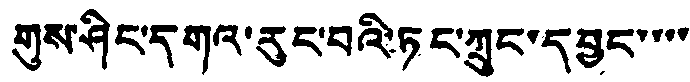གུས་ཤིང་དགའ་རུང་བའི་ཏང་ཀྲུང་དབྱང་་་་
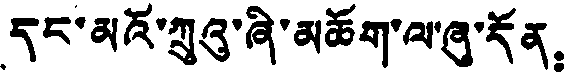དང་མའོ་ཀྲུའུ་ཞི་མཆོག་ལ་ཞུ་དོན：
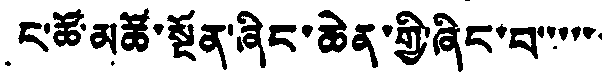ང་ཚོ་མཚོ་སྔོན་ཞིང་ཆེན་གྱི་ཞིང་བ་་་་་་
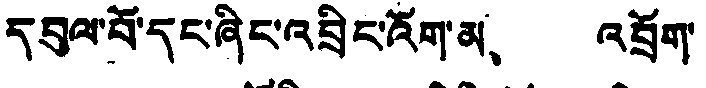དབུལ་བོ་དང་ཞིང་འབྲིང་འོག་མ、 འབྲོག་
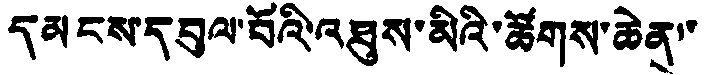དམངས་དབུལ་བོའི་འཐུས་མིའི་ཚོགས་ཆེན་་
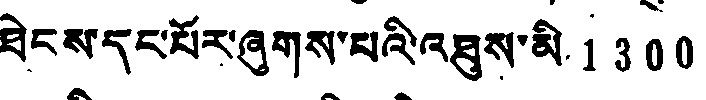ཐེངས་དང་པོར་ཞུགས་པའི་འཐུས་མི1300
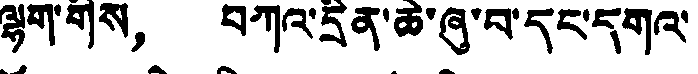ལྷག་གིས， བཀའ་དྲིན་ཆེ་ཞུ་བ་དང་དགའ་
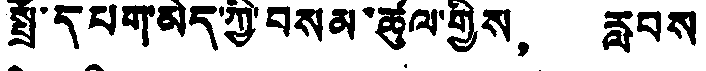སྤྲོ་དཔག་མེད་ཀྱི་བསམ་ཚུལ་གྱིས， རླབས
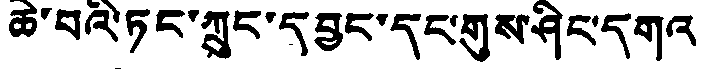ཆེ་བའི་ཏང་ཀྲུང་དབྱང་དང་གུས་ཤིང་དགའ
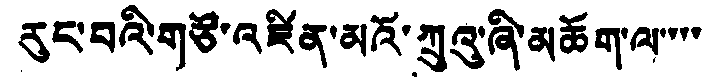རུང་བའི་གཙོ་འཛིན་མའོ་ཀྲུའུ་ཞི་མཆོག་ལ་་་་
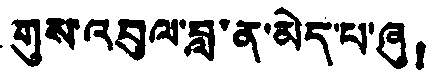གུས་འབུལ་བླ་ན་མེད་པ་ཞུ！
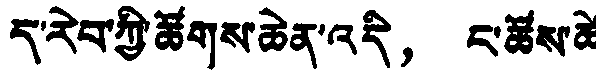ད་རེབ་ཀྱི་ཚོགས་ཆེན་འདི， ང་ཚོས་ཚེ་
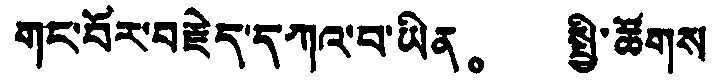གང་བོར་བརྗེད་དཀའ་བ་ཡིན。 སྤྱི་ཚོགས
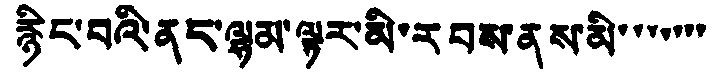རྙིང་བའི་ནང་ལྷམ་ལྟར་མི་རབས་ནས་མི་་་་་་་
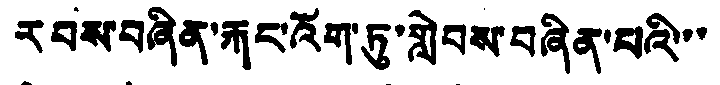རབས་བཞིན་རྐང་འོག་ཏུ་གླེབས་བཞིན་པའི་་་
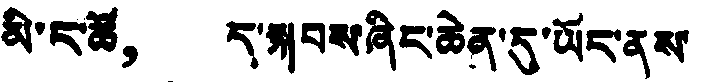མི་ང་ཚོ， ད་སྐབས་ཞིང་ཆེན་དུ་ཡོང་ནས་
